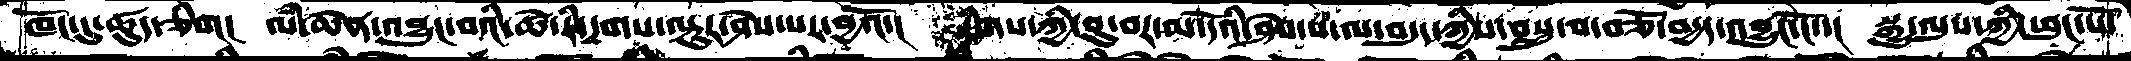ཁོང་དུ་ཚུད་ཅིག། ལཾ་ཆེན་འབྱུང་བའི་ཚེ་རི་དྭགས་ལྟུར་ཤེས་པར་བྱའོ་། རིགས་ཀྱི་བུ་བར་མ་དོའི་ཤེས་པ་ལ་བདུད་ཀྱིས་བསླུ་བ་བཅོ་བདྱད་འབྱུང་ངོ་་། སྒྱུ་ལུས་ཀྱི་ཕུང་པོ་
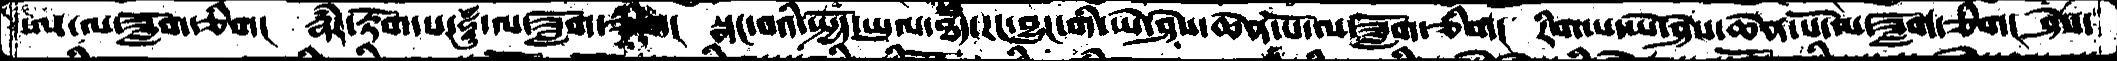ཨ་ལ་ཟློག་ཅིག།  རྣཾར་རྟོག་པ་ཧཱུཾ་ལ་ཟློག་ཅིག།  སྣང་བའི་སྤྱོད་ཡུལ་ཐཾད་རང་བྱུང་གི་ཡེ་ཤེས་ཆེན་པོ་ལ་ཟློག་ཅིག།  རིག་པ་ཡེ་ཤེས་ཆེན་པོ་ལ་ཟློག་ཅིག།  ཤེས་
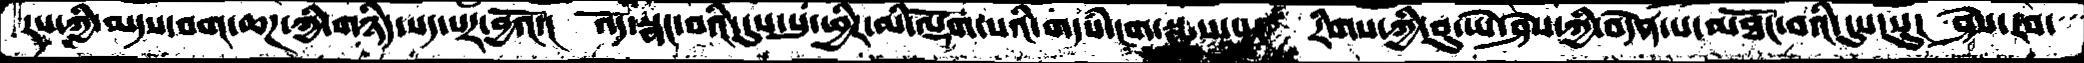རས་ཀྱི་མདས་བག་ཆགས་ཀྱི་གཉིད་སད་པར་བྱའོ་། འོད་སྣང་བའི་དུས་སུ་ཕྱིར་མི་ལྡོག་པའི་གདཾས་ངག་སྨྲས་པ་། རིགས་ཀྱི་བུ་ཡེ་ཤེས་བདེན་པ་མཐོང་བའི་དུས་སུ་། ཤེས་རབ་
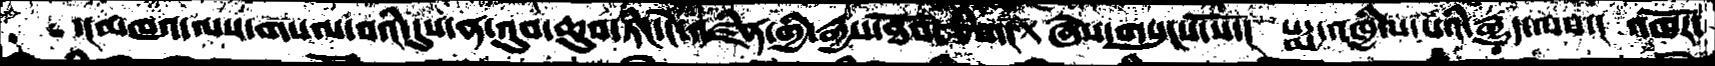་།མཁའ་ལས་གསལ་བའི་དུས་ན་འུབ་ཆུབ་ཏིང་ངེ་འཛིན་གྱི་རྒྱས་ཐོབ་ཅིག། ཞེས་གསུངས་སོ་། པདྨ་འཁྱིལ་པའི་རྒྱུད་ལས་། འཁོར་
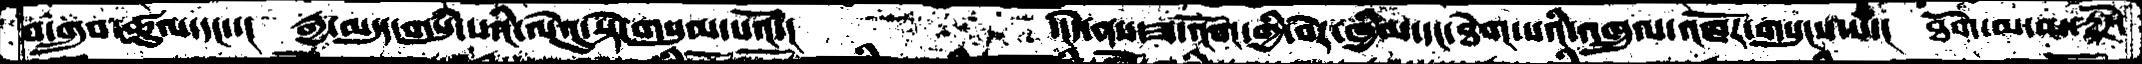བ་གྲུབ་ཚུལ་དང་་།  རྒྱ་མདུད་གསུཾ་པའི་ལེའུ་སྟེ་གསུམ་པའོ་།     ་།དེ་ནས་ཟ་འོག་གྱི་བེར་ཁྱིམ་དང་ཐེག་པའི་འཁྲུལ་འཁོར་གསུངས་པ་།  ཐོག་མ་མ་རྟོཌ་
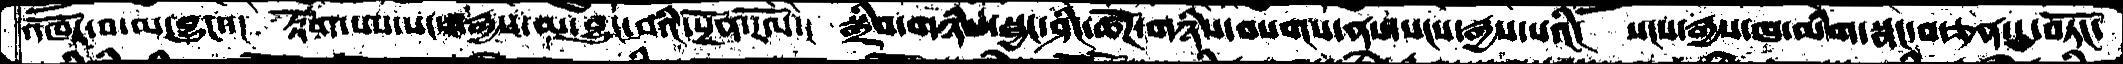འཁོར་བ་མ་བྱུང་་།   རྟོག་པས་སངས་རྒྱས་མ་བྱུང་བའི་སྔོན་རོལ་།  སྒྲིབ་གཉིས་སྦྱང་ཤིང་ཚོཌ་གཉིས་བསགས་ནས་སངས་རྒྱས་པའི།  སངས་རྒྱས་ཁ་མིག་སྣང་བ་ཅན་དུ་བཏོང་
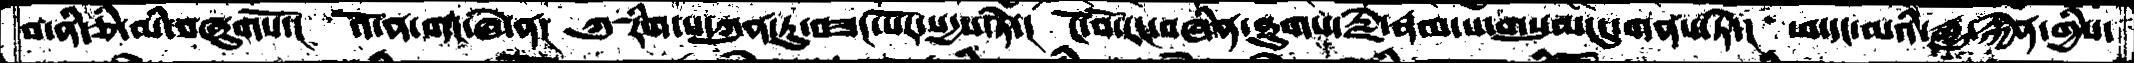བ་ནི་ཅི་མི་བཞུགསོ་།   འོ་ན་གང་ཞེ་ན།  ཀུ་རིག་པ་ཀུན་ཏུ་བཟང་པོར་སདྱས་ཏེ་།  ངོ་བོ་རང་བཞིན་ཐུགས་རྗེ་རྣམ་པ་གསུམ་དུ་གནས་ཏེ་།  ཕ་དང་མའི་རྒྱུ་རྐྱེན་གྱིས་
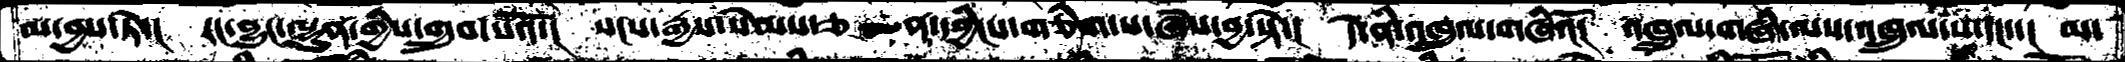མ་བྱས་ཏེ་།  རང་བྱུང་ལྷུན་གྱིས་གྲུབ་པའོ་།  སངས་རྒྱས་སེམས་ཅ     ན་དབྱིངས་གཅིག་པ་ཞེས་བྱ་སྟེ་།  དེ་ནི་འཁྲུལ་གཞིའོ།  འཁྲུལ་གཞི་ལས་འཁྲུལ་པ་དང་་། མ་
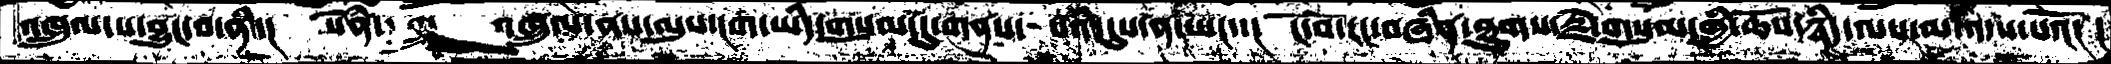འཁྲུལ་པ་བྱུང་བ་ནི་། སེཾན་  འཁྲུལ་ནས་ལུས་ངག་ཡིད་གསུམ་དུ་གནས་ པའི་དུས་ན་ཡང་་། ངོ་བོ་རང་བཞིན་ཐུགས་རྗེ་གསུམ་གྱི་ཆོས་ཉིད་ལས་མ་འདས་པའོ། །
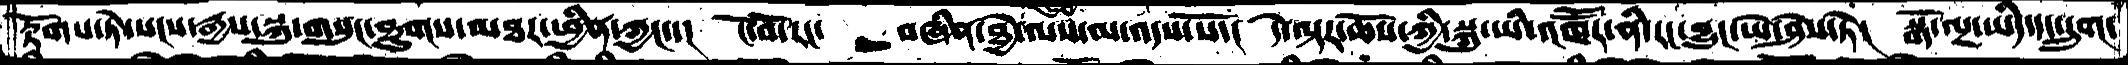རྟོགས་ཏེ་སངས་རྒྱས་སྐུ་གསུང་ཐུགས་མཐར་ཕྱིན་ཀྱང་་།  ངོ་བོ་རང་      བཞིན་ཐྱེ་ལས་མ་འདས་སོ་།   དེ་ལྟར་ཆོས་ཀྱི་སྐུ་ཡི་འཁཽར་ནི་རང་བྱུང་ཡེ་ཤེས་ཏེ།  སྒོ་ལྔ་ཡིད་དང་དྲུག་
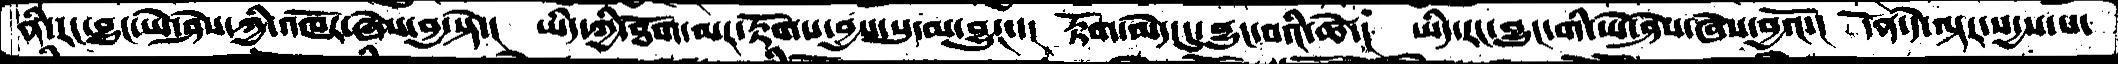ནི་རང་བྱུང་ཡེ་ཤེས་ཀྱི་འཁོར་ཞེས་བྱ་སྟེ་།  ཡིད་ཀྱི་ཐོག་མར་རྟོགས་བྱས་སུ་མ་བྱུང་་།  རྟོག་མེད་དུ་བྱུང་བའི་ཚེ་།  ཡིད་རང་གི་ཡེ་ཤེས་ཞེས་བྱའོ་།  དོན་དེ་ལྟར་སདྱས་པ་
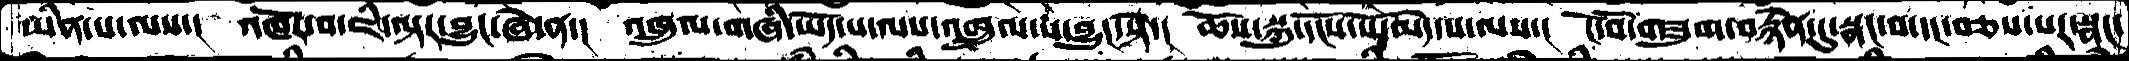ཡིན་པ་ལས་།  འཁོར་བ་ཇི་ལྟར་བྱུང་ཞེ་ན་།  འཁྲུལ་གཞི་ཡོད་པ་ལས་འཁྲུལ་པ་བྱུང་སྟེ་།  ཆོས་སྐུ་དངོས་པོ་མེད་པ་ལས་།  ངོ་བོ་གཟུག་བརྙེན་དུ་སྣང་བ་དང་བཅས་པར་སྣང་
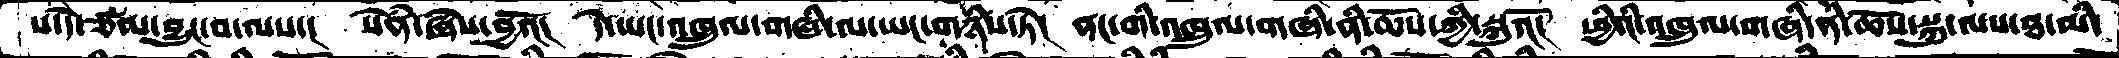པ་དེ་ཙམ་བྱུང་བ་ལས་།   སེཾན་ཞེས་བྱའོ།  དེ་ཡང་འཁྲུལ་གཞི་ལ་ཡང་གཉིས་ཏེ།  ནང་གི་འཁྲུལ་གཞི་ནི་ཆོས་ཀྱི་སྐུའོ།  ཕྱིའི་འཁྲུལ་གཞི་ནི་ཆོས་སྐུ་ལས་ཐ་མི་
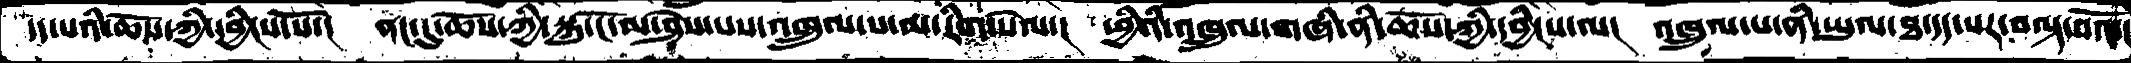དད་པའི་ཆོས་ཀྱི་དབྱིངས་སོ་།  ནང་དུ་ཆོས་ཀྱི་སྐུ་ངོ་མ་ཤེས་པས་འཁྲུལ་པ་མ་རིག་སེལ་།   ཕྱིའི་འཁྲུལ་གཞི་ནི་ཆོས་ཀྱི་དབྱིངས་ལ།  འཁྲུལ་པ་ནི་ཡུལ་ཐ་དད་པར་བལྟ་བའོ་།
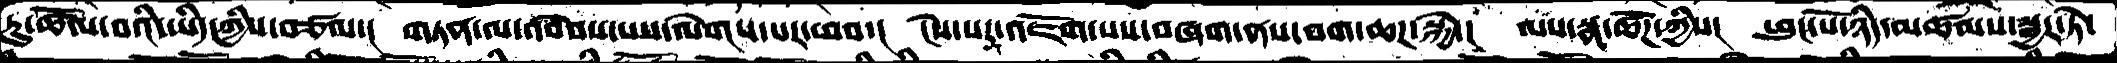ཏུ་ཚོལ་བའི་ཡིད་ཀྱིས་བཙལ་།  གཏན་ལ་འབེབས་པས་ལེགས་པར་ཕབ་།  ངེས་པར་འཇོག་པས་བཞག་ནས་བག་ཆཌ་སྐྱེ་།  ལས་སྣ་ཚོཌ་ཀྱིས།  ཕུང་པོ་ཉིད་མཚམས་སྦྱར་ཏེ་
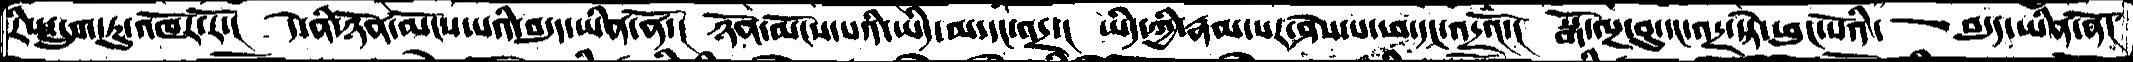རིས་དྲུག་ཏུ་འཁོར་རོ་།  དེ་ནི་ཉོན་མོངས་པའི་བདུད་ཡིན་ནོ་།  ཉོན་མོངས་པའི་ཡིད་མ་དང་འདྲ་།  ཡིད་ཀྱི་རྣམ་པར་ཤེས་པ་ཕ་དང་འདྲའོ་།  སྒོ་ལྔ་བུ་དང་འདྲ་སྟེ་ཕུང་པོའི་  བདུད་ཡིན་ནོ།
